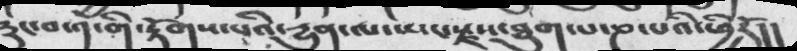རུང་བ་༡་གི་རྟོགས་པའི་དྱུན་ལ་སྤང་རྫས་ཐུབ་པ་ཎ་པའི་ཕྱིརོ།།
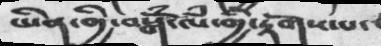ཡིན་གྱི་བསྒོཾ་ལཾ་གྱི་རྟོགས་པ་
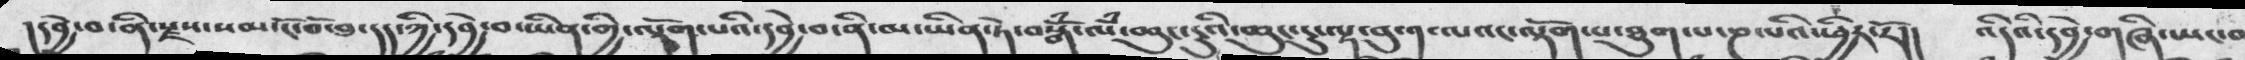།དབྱེ་བ་ནི་སྫས་སམ་ངོ་བོ་ཐ་དད་ཀྱི་དབྱེ་བ་ཡིན་གྱི་ལྟོག་པའི་དབྱེ་བ་ནི་མ་ཡིན་ཏེ་བསྒོཾ་ལཾ་ཆུང་ངུའི་ཆུང་ངུ་ལྟ་བུ་༡་ལའང་ལྟོག་པ་ཐུག་པ་ཎ་པའི་ཕྱིར་རོ།།   འདིའི་དབྱེ་གཞི་ཡང་བ
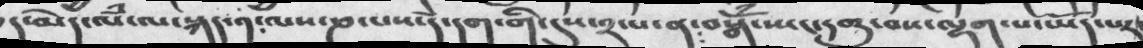ད་མེད་ལཾ་ལ་སྐད་༡༴ ལས་ཎ་པས་དེ་དག་གི་དུས་༢་པ་ན༴བསྒོཾ་ཡང་དགུ་བས་ལྷག་པ་ཡོད་པར་
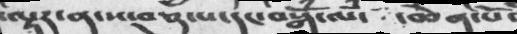ལྟར་ན་ས་བཅུ་པ་དང་བསྒོཾ་ལཾ་  ཆེན་པོ་
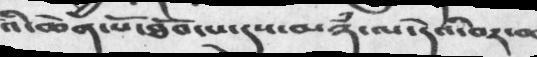འི་ཆེན་པོ་ཐོབ་པ་དུས་མཉཾ་ལ་དེའི་བར་ན
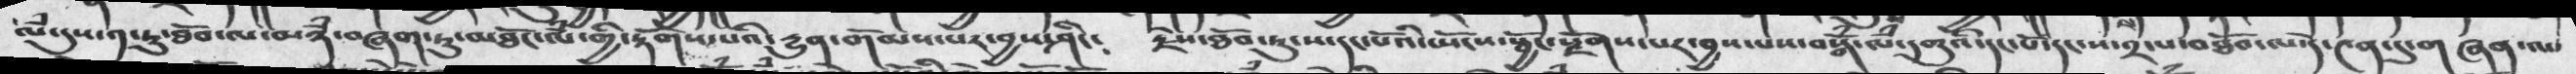ལཾ་དུས་༡་ཏུ་ཐོབ་ལ་མཉཾ་བཞག་ཏུ་མཐོང་ལཾ་གྱི་རྟོག་པའི་དྱུན་གོམས་པར་བྱས་ཤིང༴  རྗེས་ཐོབ་ཏུ་ས་དང་པོའི་སྤོངས་སྦྱོང་རྫོགས་པར་བྱས་པས་བསྒོཾ་ལཾ་དགུའི་དང་པོ་དང་ས་༢་པ་བཐོབ་ལ་དེ་༤ན་དུ་གཞན་ལ་
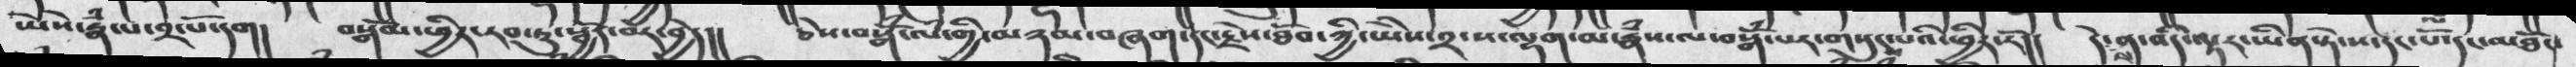ཡེསེ་རྣཾ་པ་༢་པོ་དག།  བསྒོམ་ཕྱིར་རབ་ཏུ་སྦྱོར་བར་བྱེད།།  ཅེས་བསྒོཾ་ལཾ་གྱི་མཉམ་བཞག་དང་རྗེས་ཐོབ་ཀྱི་ཡེེས་༢་ས་ལྷག་མ་རྣཾས་ལ་བསྒོཾ་པར་གསུངས་པའི་ཕྱིར་རོ།།  དེས་ན་འདི་ལྟར་ཡིན་ཏེ་ས་དང་པོ་དང་མཐོང་
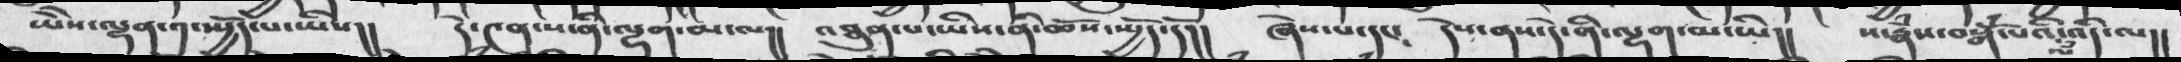ཡེེས་ལྷན་༡་སྤྱོད་པ་ཡིས།།  དེ་༤ན་ས་ནི་ལྷག་མ་ལ།།  འཐུན་པ་ཡིས་ནི་ཆོས་སྤྱོད་དོ།།  ཞེས་པ་དང༴  དེས་ནས་དེ་ནི་ལྷག་མ་ཡི།།  ས་རྣཾས་བསྒོཾ་པའི་ལཾ་འདི་ལ།།
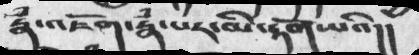རྣཾ་འཇོག་རྣཾ་པར་མི་རྟོག་པའི།།
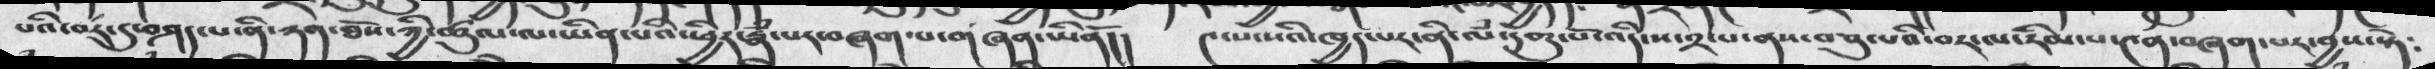པའི་བར་དུ་བཤད་པ་ནི་ཉན་ཐོས་ཀྱི་ཚུལ་ལ་ཡིན་པའི་ཕྱིར་རྣཾ་པར་བཞག་པ་གཞན་ཡིནོ།།  ༤་པ་སའི་ཁྱད་པར་ནི་ལཾ་དགུ་པོ་འདི་ས་༢་པ་ནས་བཅུ་པའི་བར་ལ་རིམ་པ་༤ན་བཞག་པར་བྱས་སྟེ༴
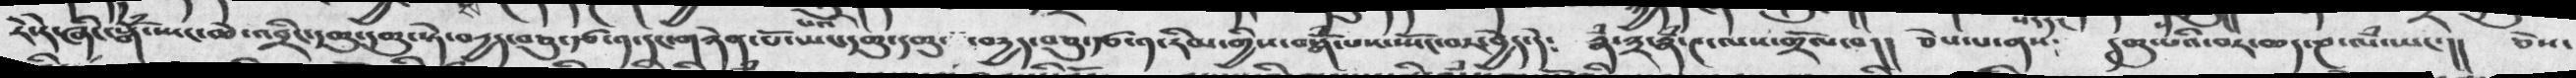རེ་དེ་ཞིང་སྒོཾ་སྤང་ཆེ་འབྲིང་དགུ་དགུ་སྟེ་བརྱད་བཅུ་རྩ་༡་དང་གཉེན་པོ་སྤང་པའི་དགུ་དགུ་ བདྱད་བཅུ་རྩ་༡་རིམ་གྱིས་བསྒོཾ་པས་སྤོང་བར་བྱེད་དེ༴   རྣཾ་༣་རྣཾ་༤་ལས་གྲོལ་བ།།  ཅེས་པ་ནས་པ་དང  དགུ་པའི་བར་ཆད་ཎ་ལཾ་ཡང་།།  ཅེས་
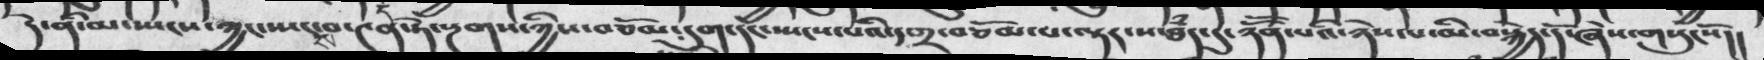དེ་ནི་མ་སྤངས་ཀྱང་སྤངས་བ་༤ན་ཏེ་སྔགས་ཀྱིས་བཅོམ་དུག་དང་སྤངས་པའི་དགྲ་བཅོམ་པ་ལྟར་ས་ཐཾད་དུ་ ཉོོན་པའི་ཉེས་པ་མི་བསྐྱེད་དོ་ཞེས་གསུངསོ།།
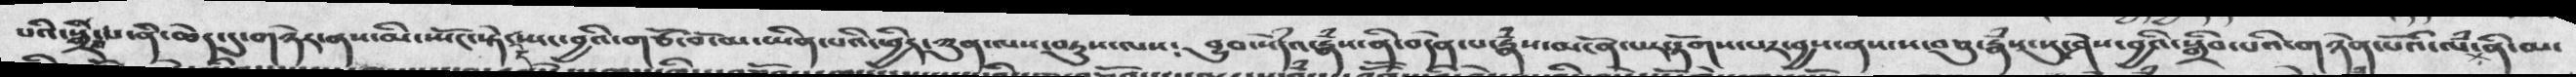པའི་སྒྲིད་པ་ནི་ཆེད་དུ་གཉེར་ནས་མི་སྤོང་སྟེ་སྤང་བྱའི་གཙོ་བོ་མ་ཡིན་པའི་ཕྱིར་ཀུན་ལས་བཏུས་ལས༴ བྱུབ་སེདཾའ་རྣཾས་ནི་བདེན་པ་རྣཾས་མངོན་པར་ཏོགས་པར་བྱས་ནས་ས་བཅུ་རྣཾས་སུ་ཤེས་བྱའི་སྒྲིབ་པའི་གཉེན་པོའི་ལཾ་ནི་མ་
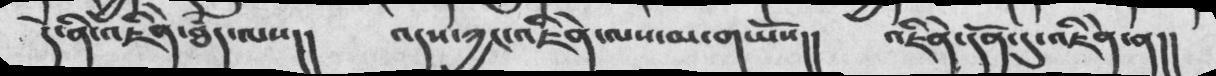དེ་ནི་འཇིན་ཐཾད་ལས།།   འདས་ཀྱང་འཇིནེ་ལས་མ་གཡོས།།   འཇིནེ་དོན་དུ་འཇིནེ་ན།།
